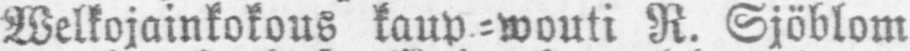Welkojainkokous kaup-wouti R. Sjöblom
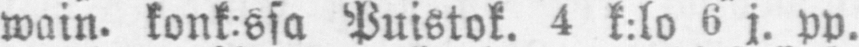wain. konk:ssa Puistok. 4 k:lo 6 j. pp.
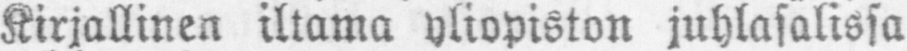Kirjallinen iltama yliopiston juhlasalissa
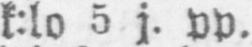k:lo 5 j. pp.
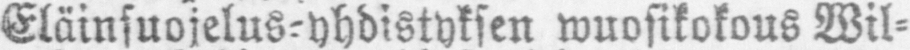Eläinsuojelus-yhdistyksen wuosikokous Wil-
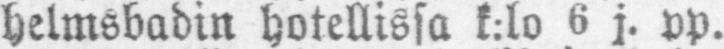helmsbadin hotellissa k:lo 6 j. pp.
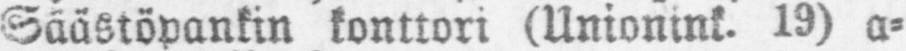Säästöpankin konttori (Unionink. 19) a-
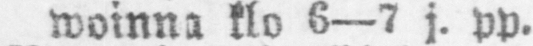woinna klo 6—7 j. pp.
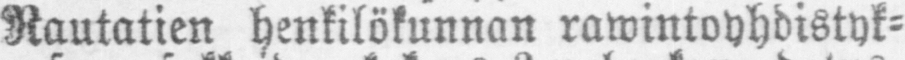Rautatien henkilökunnan rawintoyhdistyk-
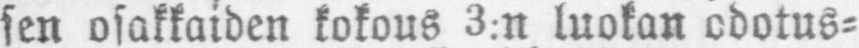sen osakkaiden kokous 3:n luokan odotus-
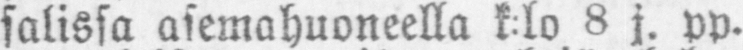salissa asemahuoneella k:lo 8 j. pp.
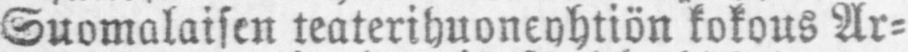Suomalaisen teaterihuoneyhtiön kokous Ar-
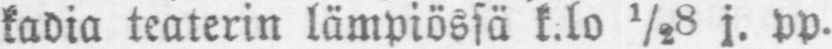kadia teaterin lämpiössä k:lo ½8 j. pp.
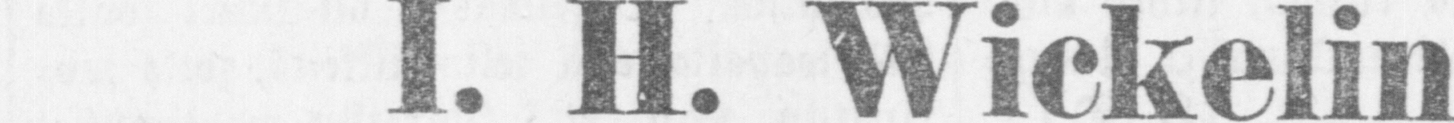I. H. Wickelin
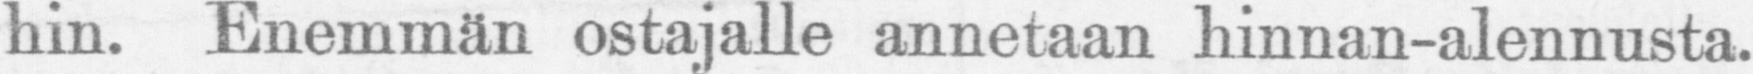hin. Enemmän ostajalle annetaan hinnan-alennusta.
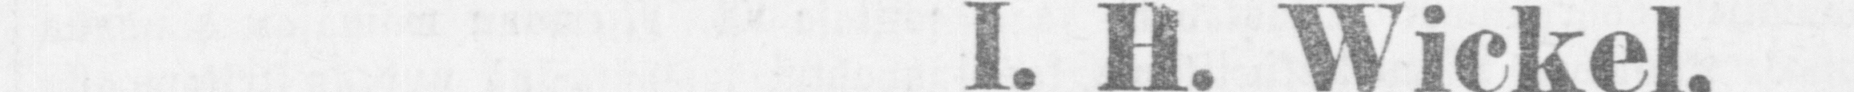I. H. Wickel,
